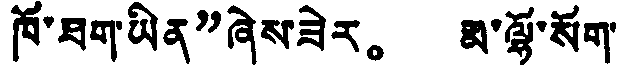ཁོ་ཐག་ཡིན”ཞེས་ཟེར。 མ་ལྷོ་སོག་
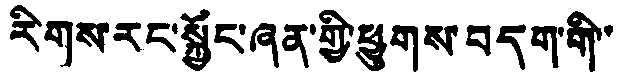རིགས་རང་སྐྱོང་ཞན་གྱི་ཕྱུགས་བདག་གི་་
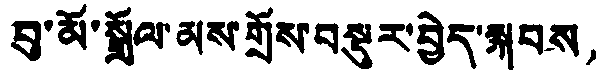བུ་མོ་སྒྲོལ་མས་གྲོས་བསྡུར་བྱེད་སྐབས，
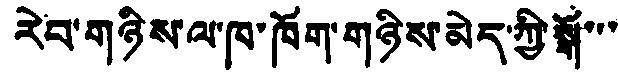རེབ་གཉིས་ལ་ཁ་ཁོག་གཉིས་མེད་ཀྱི་སྒོ་་་
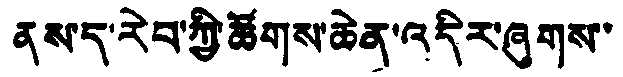ནས་ད་རེབ་ཀྱི་ཚོགས་ཆེན་འདིར་ཞུགས་
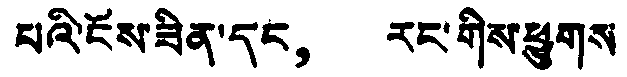པའི་ངོས་ཟིན་དང， རང་གིས་ཕྱུགས
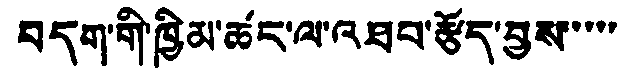བདག་གི་ཁྱིམ་ཚང་ལ་འཐབ་རྩོད་བྱས་་་་་
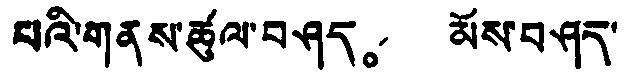པའི་གནས་ཚུལ་བཤད。 མོས་བཤད་
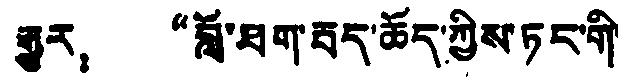རྒྱུར： “བློ་ཐག་རྦད་ཆོད་ཀྱིས་ཏང་གི་
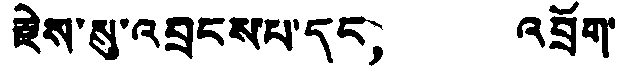རྗེས་སུ་འབྲངས་པ་དང， འབྲོག་
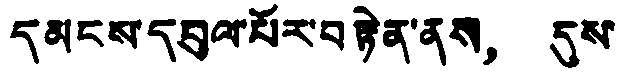དམངས་དབུལ་པོར་བརྟེན་ནས， དུས་
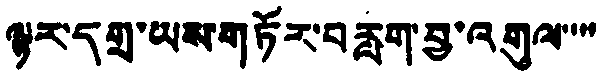ལྟར་དགྲ་ཡས་གཏོར་བརླག་བྱ་འགུལ་་་་
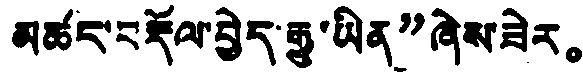མཚང་བརྡོལ་བྱེད་རྒྱུ་ཡིན”ཞེས་ཟེར。
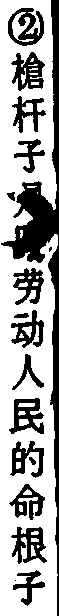②槍杆子是我劳动人民的命根子
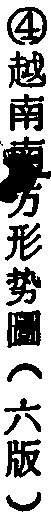④越南南方形势圖（六版）
